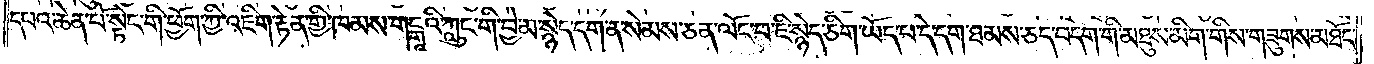དཔའ་ཆེན་པོ་སྟེང་གི་ཕྱོག་ཀྱི་འཇིག་རྟེན་གྱི་ཁམས་གངྒཱའི་ཀླུང་གི་བྱེ་མ་སྙེད་དག་ན་སེམས་ཅན་ལོང་བ་ཇི་སྙེད་ཅིག་ཡོད་པ་དེ་དག་ཐམས་ཅད་བདག་གི་མཐུས་མིག་གིས་གཟུགས་མཐོང་
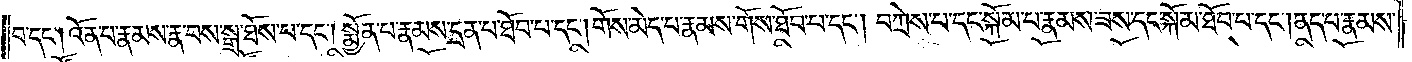བ་དང༌། འོན་པ་རྣམས་རྣ་བས་སྒྲ་ཐོས་པ་དང༌། སྨྱོན་པ་རྣམས་དྲན་པ་ཐོབ་པ་དང༌། གོས་མེད་པ་རྣམས་གོས་ཐོབ་པ་དང༌། བཀྲེས་པ་དང་སྐོམ་པ་རྣམས་ཟས་དང་སྐོམ་ཐོབ་པ་དང༌། ནད་པ་རྣམས་
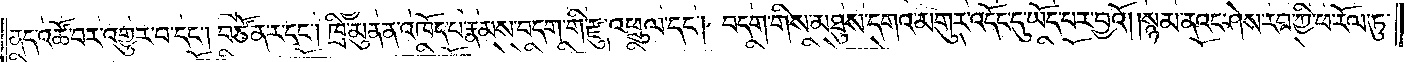ནད་འཚོ་བར་འགྱུར་བ་དང༌། བཙོན་ར་དང༌། ཁྲི་མུན་ན་འཁོད་པ་རྣམས་བདག་གི་རྫུ་འཕྲུལ་དང༌། བདག་གིས་མཐུས་དགའ་མགུར་འདོང་དུ་ཡོད་པར་བྱའོ། །སྙམ་ནའང་ཤེས་རབ་ཀྱི་ཕ་རོལ་ཏུ་
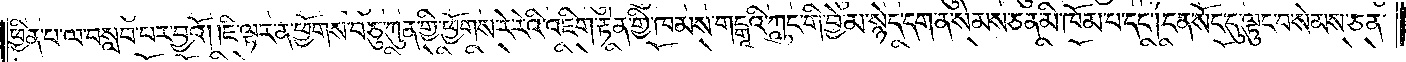ཕྱིན་པ་ལ་བསླབ་པར་བྱའོ། །ཇི་ལྟར་ན་ཕྱོགས་བཅུ་ཀུན་གྱི་ཕྱོགས་རེ་རེའི་འཇིག་རྟེན་གྱི་ཁམས་གངྒཱའི་ཀླུང་གི་བྱེ་མ་སྙེད་དག་ན་སེམས་ཅན་མི་ཁོམ་པ་དང༌། ངན་སོང་དུ་ལྟུང་བ་སེམས་ཅན་
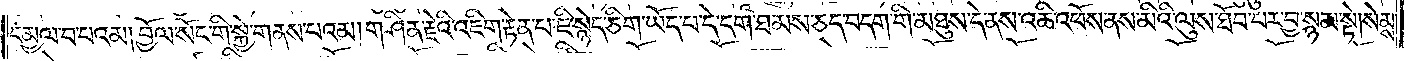དམྱལ་བ་པའམ། བྱོལ་སོང་གི་སྐྱེ་གནས་པའམ། གཤིན་རྗེའི་འཇིག་རྟེན་པ་ཇི་སྙེད་ཅིག་ཡོད་པ་དེ་དག་ཐམས་ཅད་བདག་གི་མཐུས་དེ་ནས་འཆི་འཕོས་ནས་མིའི་ལུས་ཐོབ་པར་བྱ་སྙམ་སྟེ། སེམས་
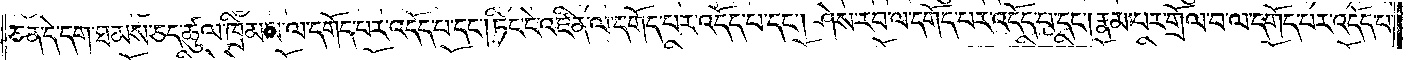ཅན་དེ་དག་ཐམས་ཅད་ཚུལ་ཁྲིམས་ལ་དགོད་པར་འདོད་པ་དང༌། ཏིང་ངེ་འཛིན་ལ་དགོད་པར་འདོད་པ་དང༌། ཤེས་རབ་ལ་དགོད་པར་འདོད་པ་དང༌། རྣམ་པར་གྲོལ་བ་ལ་དགོད་པར་འདོད་པ་
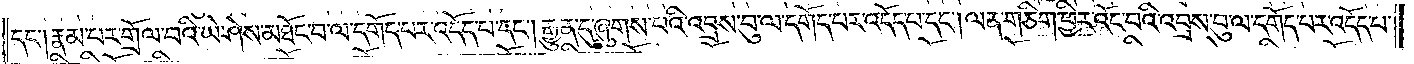དང༌། རྣམ་པར་གྲོལ་བའི་ཡེ་ཤེས་མཐོང་བ་ལ་དགོད་པར་འདོད་པ་དང༌། རྒྱུན་དུ་ཞུགས་པའི་འབྲས་བུ་ལ་དགོད་པར་འདོད་པ་དང༌། ལན་གཅིག་ཕྱིར་འོང་བའི་འབྲས་བུ་ལ་དགོད་པར་འདོད་པ་
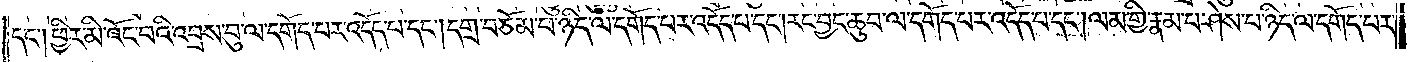དང༌། ཕྱིར་མི་འོང་བའི་འབྲས་བུ་ལ་དགོད་པར་འདོད་པ་དང༌། དགྲ་བཅོམ་པ་ཉིད་ལ་དགོད་པར་འདོད་པ་དང༌། རང་བྱང་ཆུབ་ལ་དགོད་པར་འདོད་པ་དང༌། ལམ་གྱི་རྣམ་པ་ཤེས་པ་ཉིད་ལ་དགོད་པར་
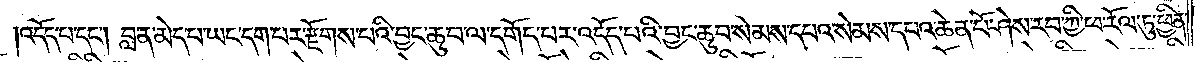འདོད་པ་དང༌། བླ་ན་མེད་པ་ཡང་དག་པར་རྫོགས་པའི་བྱང་ཆུབ་ལ་དགོད་པར་འདོད་པའི་བྱང་ཆུབ་སེམས་དཔའ་སེམས་དཔའ་ཆེན་པོ་ཤེས་རབ་ཀྱི་ཕ་རོལ་ཏུ་ཕྱིན་
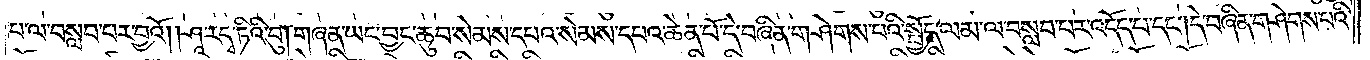པ་ལ་བསླབ་པར་བྱའོ། །ཤཱ་ར་དྭ་ཏིའི་བུ། གཞན་ཡང་བྱང་ཆུབ་སེམས་དཔའ་སེམས་དཔའ་ཆེན་པོ་དེ་བཞིན་གཤེགས་པའི་སྤྱོད་ལམ་ལ་བསླབ་པར་འདོད་པ་དང༌། དེ་བཞིན་གཤེགས་པའི་
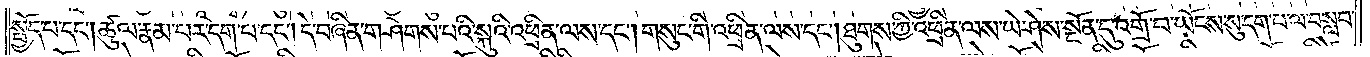སྤྱོད་པ་དང༌། ཚུལ་རྣམ་པར་དག་པ་དང༌། དེ་བཞིན་གཤེགས་པའི་སྐུའི་འཕྲིན་ལས་དང༌། གསུང་གི་འཕྲིན་ལས་དང༌། ཐུགས་ཀྱི་འཕྲིན་ལས་ཡེ་ཤེས་སྔོན་དུ་འགྲོ་བ་ཡོངས་སུ་དག་པ་ལ་བསླབ་
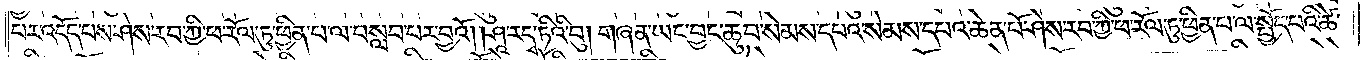པར་འདོད་པས་ཤེས་རབ་ཀྱི་ཕ་རོལ་ཏུ་ཕྱིན་པ་ལ་བསླབ་པར་བྱའོ། །ཤཱ་ར་དྭ་ཏིའི་བུ། གཞན་ཡང་བྱང་ཆུབ་སེམས་དཔའ་སེམས་དཔའ་ཆེན་པོ་ཤེས་རབ་ཀྱི་ཕ་རོལ་ཏུ་ཕྱིན་པ་ལ་སྤྱོད་པའི་ཚེ་
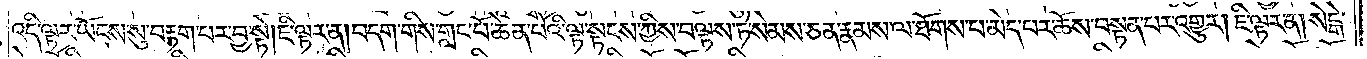འདི་ལྟར་ཡོངས་སུ་བརྟག་པར་བྱ་སྟེ། ཇི་ལྟར་ན། བདག་གིས་གླང་པོ་ཆེན་པོའི་ལྟ་སྟངས་ཀྱིས་བལྟས་ཏེ་སེམས་ཅན་རྣམས་ལ་ཐོགས་པ་མེད་པར་ཆོས་བསྟན་པར་འགྱུར། ཇི་ལྟར་ན། སེངྒེ་
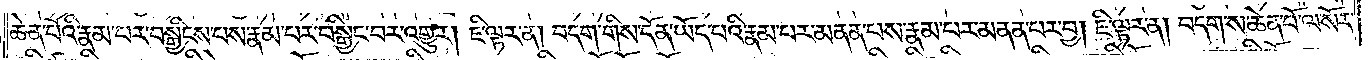ཆེན་པོའི་རྣམ་པར་བསྒྱིངས་པས་རྣམ་པར་བསྒྱིང་བར་འགྱུར། ཇི་ལྟར་ན། བདག་གིས་དོན་ཡོད་པའི་རྣམ་པར་མནན་པས་རྣམ་པར་མནན་པར་བྱ། ཇི་ལྟར་ན། བདག་ས་ཆེན་པོ་ལ་སོར་
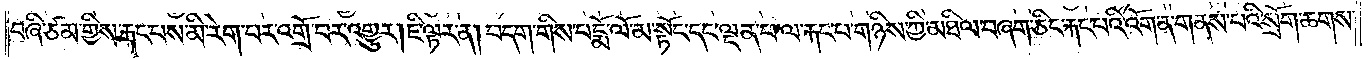བཞི་ཙམ་གྱིས་རྐང་པས་མི་རེག་པར་འགྲོ་བར་འགྱུར། ཇི་ལྟར་ན། བདག་གིས་པདྨོ་ལོ་མ་སྟོང་དང་ལྡན་པ་ལ་རྐང་པ་གཉིས་ཀྱི་མཐིལ་བཞག་ཅིང་རྐང་པའི་འོག་ན་གནས་པའི་སྲོག་ཆགས་
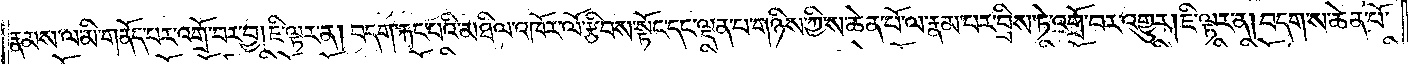རྣམས་ལ་མི་གནོད་པར་འགྲོ་བར་བྱ། ཇི་ལྟར་ན། བདག་རྐང་པའི་མཐིལ་འཁོར་ལོ་རྩིབས་སྟོང་དང་ལྡན་པ་གཉིས་ཀྱི་ས་ཆེན་པོ་ལ་རྣམ་པར་བྲིས་ཏེ་འགྲོ་བར་འགྱུར། ཇི་ལྟར་ན། བདག་ས་ཆེན་པོ་
